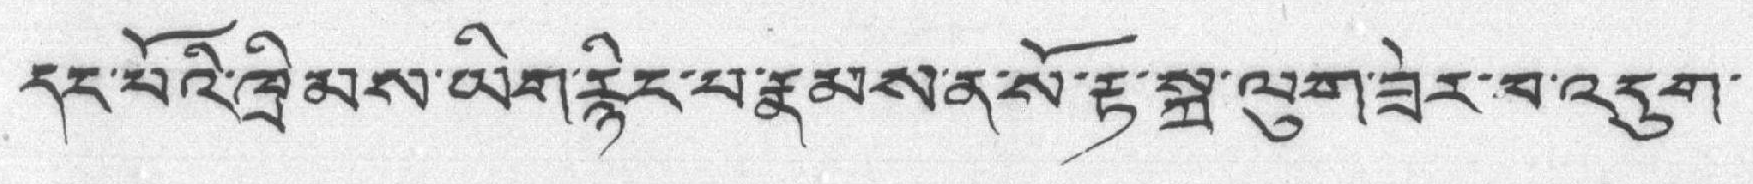དང་པོའི་ཁྲིམས་ཡིག་རྙིང་པ་རྣམས་ན་སོ་རྟ་སྐྲ་ལུག་ཟེར་བ་འདུག་
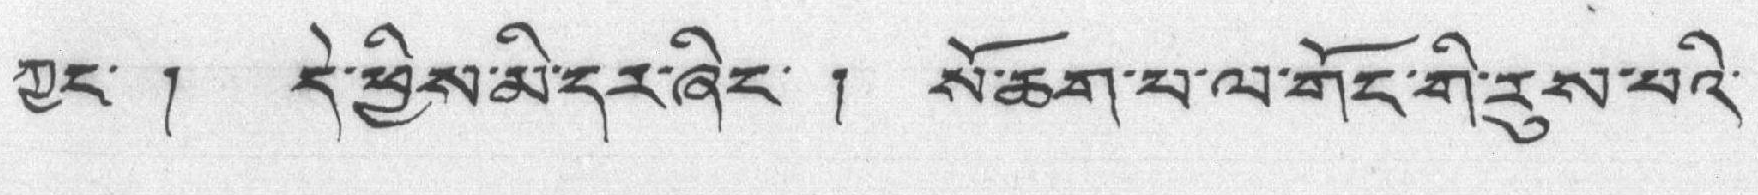ཀྱང་ ། དེ་ཕྱིས་མི་དར་ཞིང་ ། སོ་ཆག་པ་ལ་གོང་གི་རུས་པའི་
